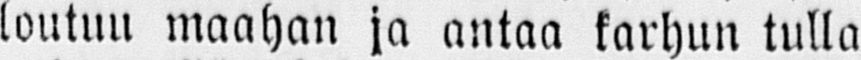loutuu maahan ja antaa karhun tulla
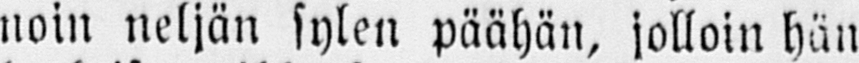noin neljän sylen päähän, jolloin hän
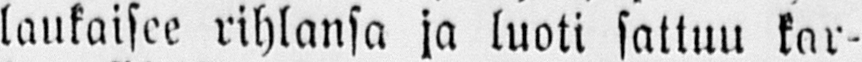laukaisee rihlansa ja luoti sattuu kar-
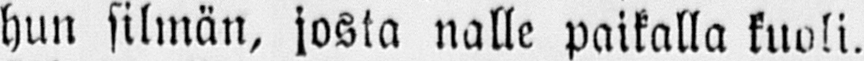hun silmän, josta nalle paikalla kuoli.
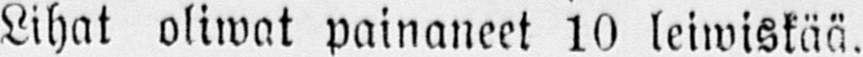Lihat oliwat painaneet 10 leiwiskää.
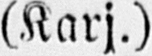(Karj.)
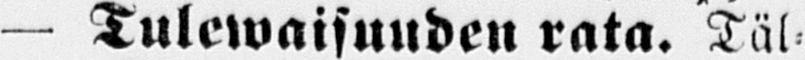— Tulewaisuuden rata. Täl-
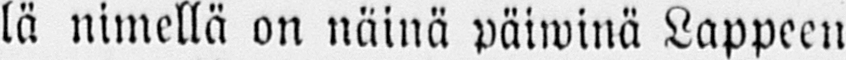lä nimellä on näinä päiwinä Lappeen-
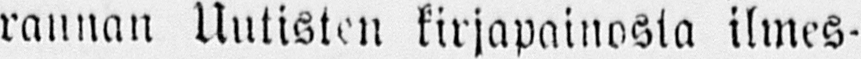rannan Uutisten kirjapainosta ilmes-
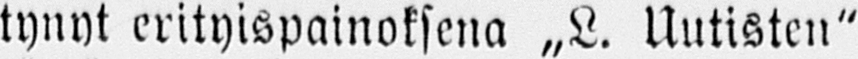tynyt erityispainoksena „L. Untisten"
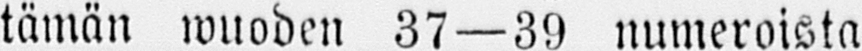tämän wuoden 37 —39 numeroista
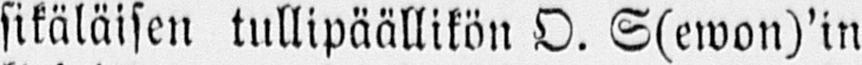sikäläisen tullipäällikön O. S(ewon)'in
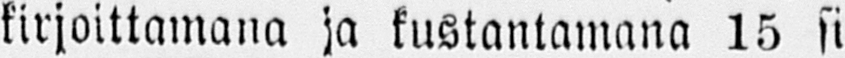kirjoittamana ja kustantamana 15 si-
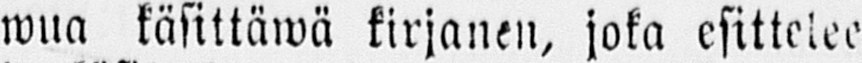wua käsittäwä kirjanen, joka esittelee
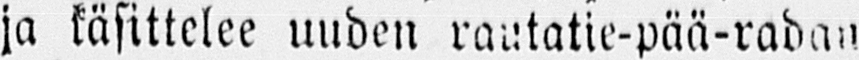ja käsittelee uuden rautatie-pää-radan
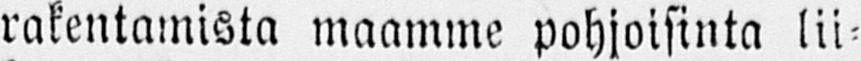rakentamista maamme pohjoisinta lii-
